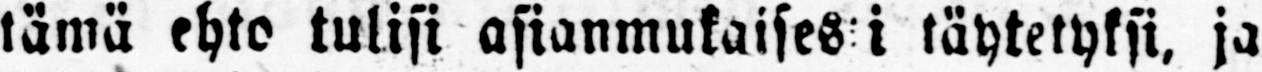tämä ehto tulisi asianmukaisesti täytetyksi, ja
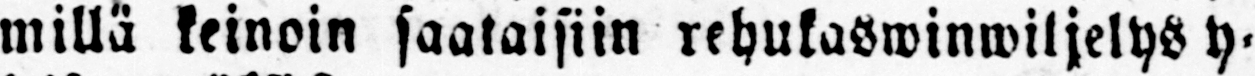millä keinoin saataisiin rehukaswinwiljelys y-
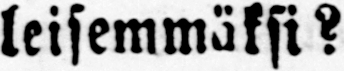leisemmäksi?
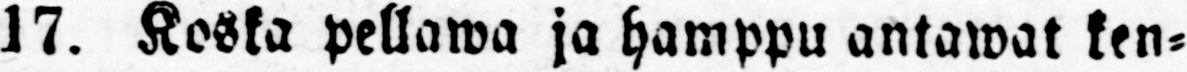17. Koska pellawa ja hamppu antawat ken-
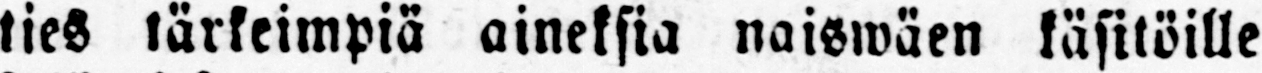ties tärkeimpiä aineksia naiswäen käsitöille
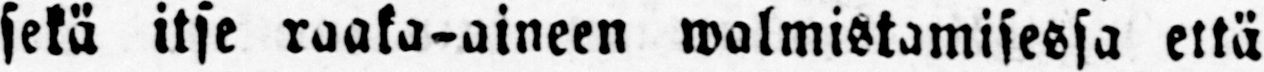sekä itse raaka-aineen walmistamisessa että
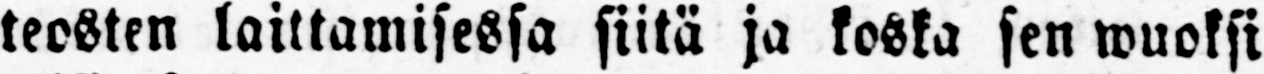teosten laittamisessa siitä ja koska sen wuoksi
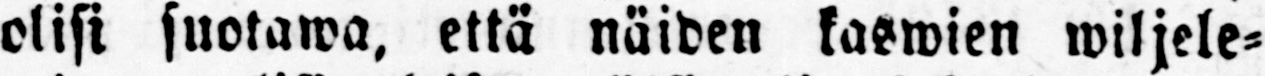olisi suotawa, että näiden kaswien wiljele-
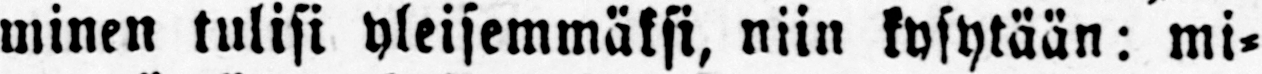minen tulisi yleisemmäksi, niin kysytään: mi-
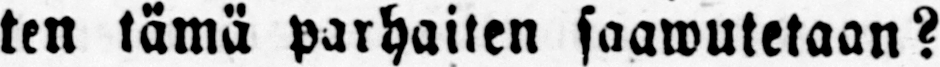ten tämä parhaiten saawutetaan?
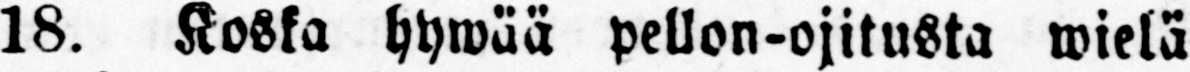18. Koska hywää pellon-ojitusta wielä
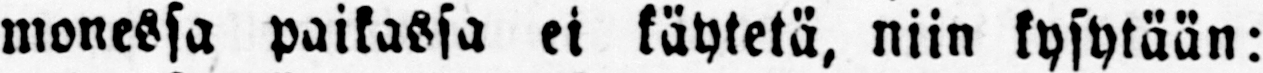monessa paikassa ei käytetä, niin kysytään:
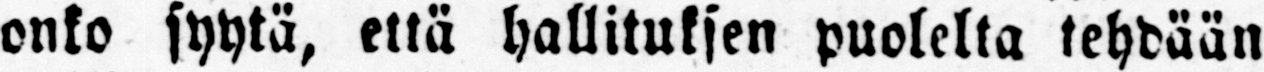onko syytä, että hallituksen puolelta tehdään
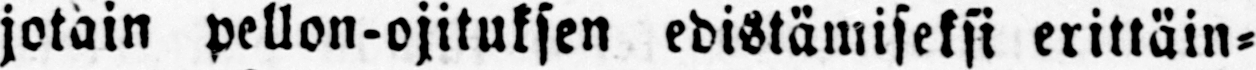jotain pellon-ojituksen edistämiseksi erittäin-
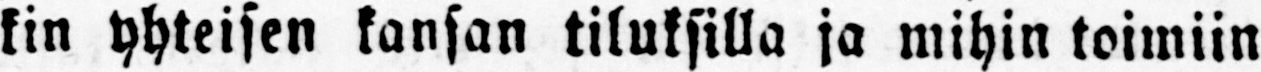kin yhteisen kansan tiluksilla ja mihin toimiin
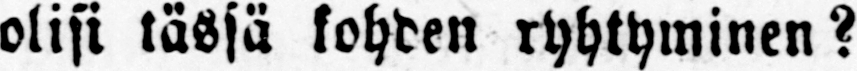olisi tässä kohden ryhtyminen?
